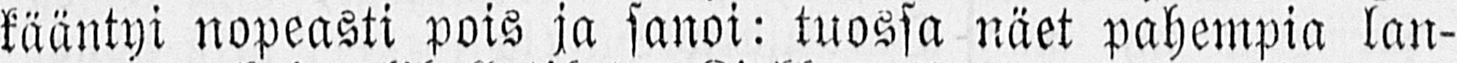kääntyi nopeasti pois ja sanoi: tuossa näet pahempia lan-
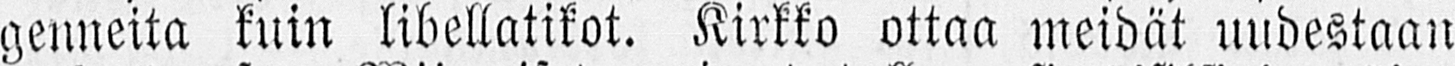genneita kuin libellatikot. Kirkko ottaa meidät uudestaan
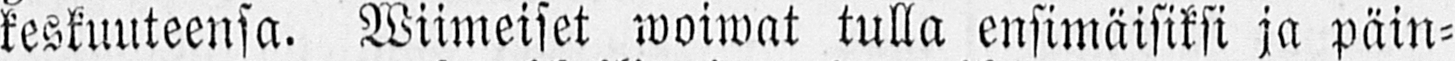keskuuteensa. Wiimeiset woiwat tulla ensimäisiksi ja päin-
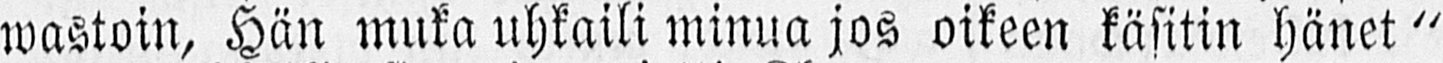wastoin, Hän muka uhkaili minua jos oikeen käsitin hänet"
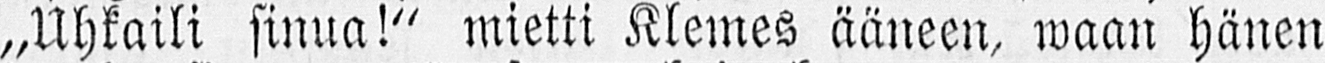„Uhkaili sinua!" mietti Klemes ääneen, waan hänen
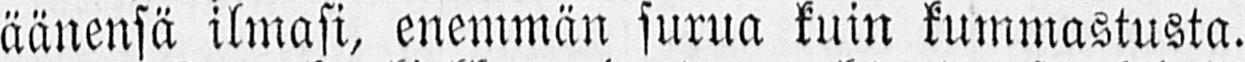äänensä ilmasi, enemmän surua kuin kummastusta.
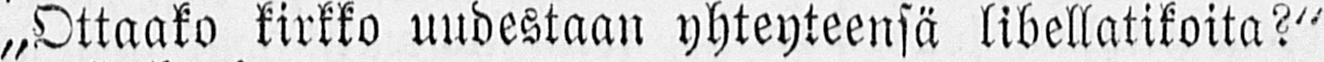„Ottaako kirkko uudestaan yhteyteensä libellatikoita?"
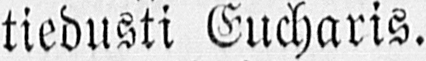tiedusti Eucharis.
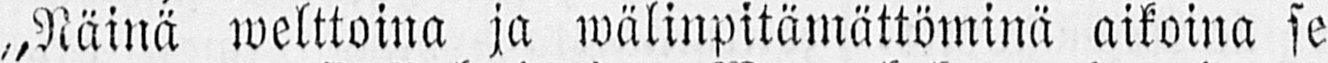„Näinä welttoina ja wälinpitämättöminä aikoina se
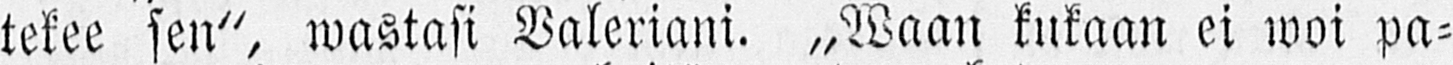tekee sen", wastasi Valeriani. „Waan kukaan ei woi pa-
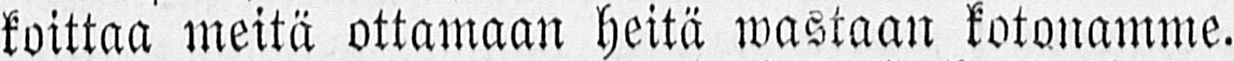koittaa meitä ottamaan heitä wastaan kotonamme.
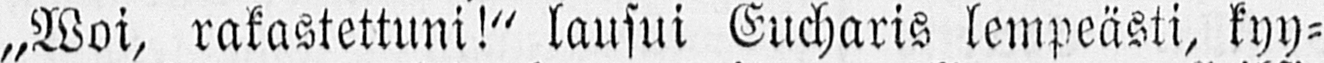„Woi, rakastettuni!" lausui Cucharis lempeästi, kyy-
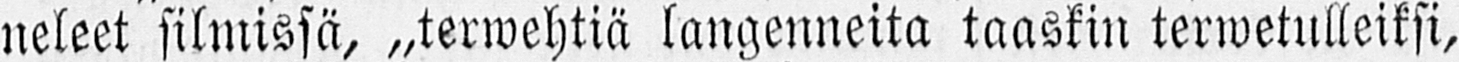neleet silmissä, „terwehtiä langenneita taaskin terwetulleiksi,
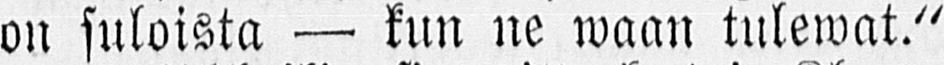on suloista — kun ne waan tulewat."
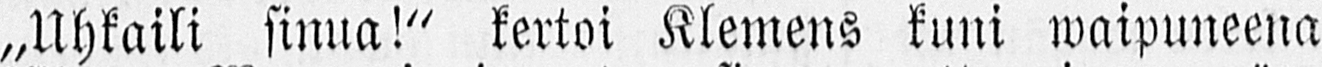„Uhkaili sinua!" kertoi Klemens kuni waipuneena
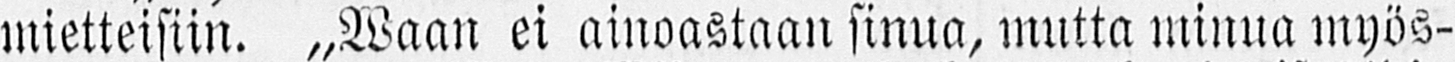mietteisiin. „Waan ei ainoastaan sinua, mutta minua myös-
